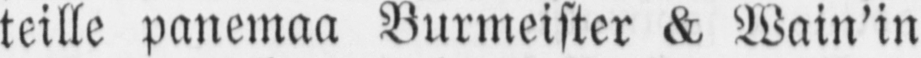teille panemaa Burmeister & Wain'in
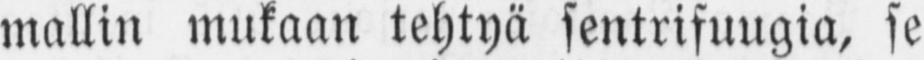mallin mukaan tehtyä sentrifuugia, se
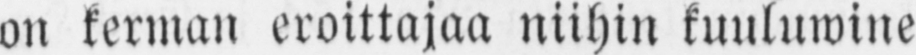on kerman eroittajaa niihin kuuluwine
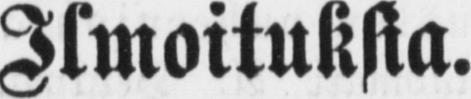Ilmoituksia.
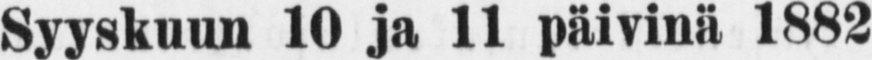Syyskuun 10 ja 11 päivinä 1882
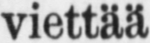viettää
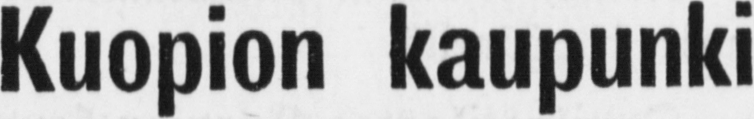Kuopion kaupunki
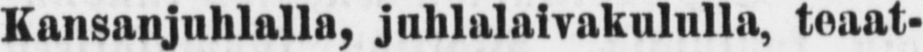Kunsanjuhlalla, juhlalaivakululla, teaat-
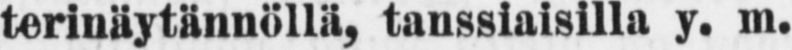terinäytännöllä, tanssiaisilla m.
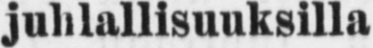juhlallisuuksilla
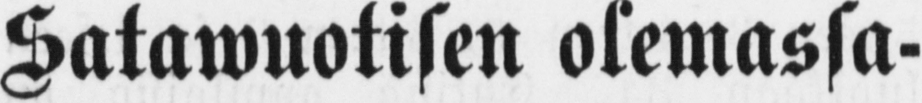Satawuotisen olemassa-
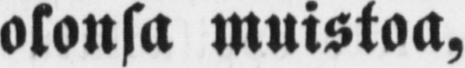olonsa muistoa,
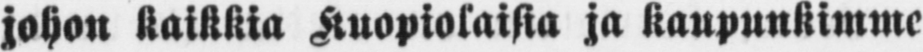johon kaikkia Kuopiolaisia ja kaupunkimme
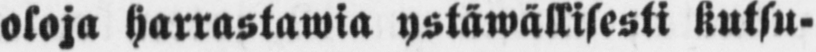oloja harrastawia ystäwällisesti kutsu-
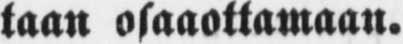taan osaaottamaan.
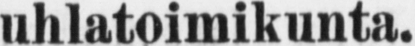Juhlatoimikunta.
